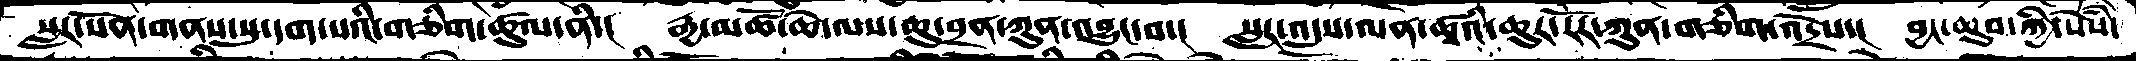སླར་སོན་གནས་སུ་དག་པའི་གཅིག་ཚུལ་ནི་།  རྒྱ་མཚོ་ཆེ་ལས་ཆུ་བྲན་ཀུན་འབྱུང་བ་།  སླར་འདུས་ལན་ཚྭའི་ཆུར་རོར་ཀུན་གཅིག་འདྲེས་།  བྱང་ཆུབ་ཀྱི་སེཾས་
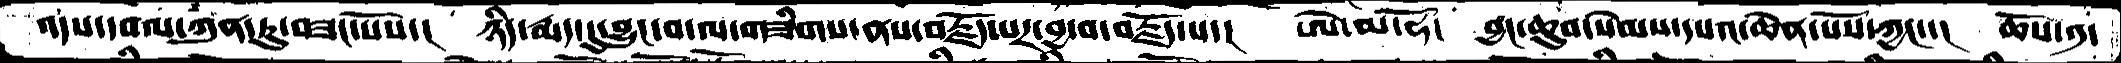འདས་དཔལ་ཀུན་ཏུ་བཟང་པོས་།  ཉིད་རྨད་དུ་བྱུང་བ་ལ་གཟིགས་ནས་བརྗོད་པར་བྱ་བ་བརྗོད་པ་།   ཨེ་མ་ཧོ།  བྱང་ཆུབ་སེམས་དཔའ་ཆེན་པོས་ཀྱང་་།  ཆོས་༡་
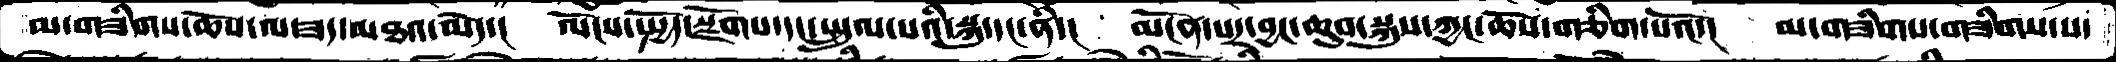མ་གཟིགས་ཆོས་ལ་ཟད་མཐའ་མེད་།  ལོངས་སྤྱོད་སྫོགས་དང་སྤྲུལ་པའི་སྐུ་དང་ནི་།  མངོན་པར་བྱང་ཆུབ་སྐུས་ཀྱང་ཆོས་གཅིག་པའོ་།  མ་གཟིགས་གཟིགས་པ་
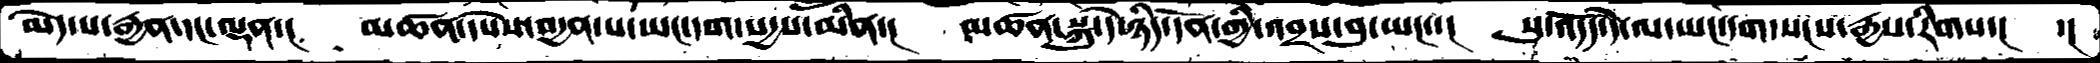མེད་པ་རྒྱན་དང་ལྡན་།  མཚན་དཔེས་བདྱན་པ་ཡང་དག་སདྱས་མིན་།  མཚན་སྐུ་དེ་ཉིད་དོན་གྱི་འབྲས་བུ་ཡང་་།  སུ་འདོད་དེ་ལ་ཡང་དག་སངས་རྒྱས་རིགས་།   ་།
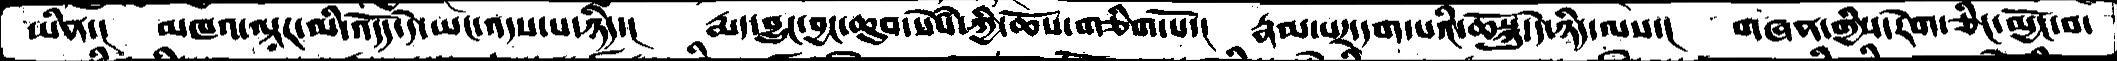ཡིན་།  མཁའ་ལྟར་མི་འདོད་དེ་ཡང་འདས་པ་ཉིད་།  རྨད་བྱུང་བྱང་ཆུབ་སེསཾ་ཀྱི་ཆོས་གཅིག་པོ།  རྣམ་པར་དག་པའི་ཆོསྐུ་དེ་ཉིད་ལས་།  གཞན་གྱིས་རེག་ཅིང་མྱོང་བ་
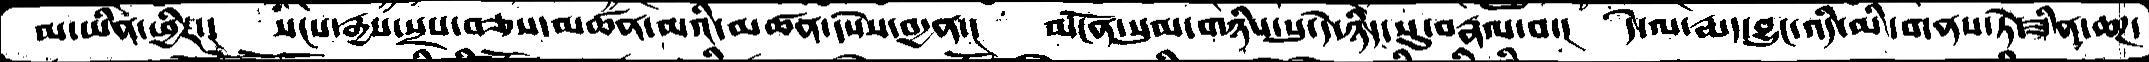མ་ཡིན་ཕྱིར་། སངས་རྒྱས་སྲས་བཅས་མཚན་མའི་མཚན་དཔེས་བརྒྱན་། མངོན་སུམ་གཉིས་སུ་དེ་ཉིད་སུ་བརྣལ་བ་། དེ་ལ་རྨད་བྱུང་འདི་མི་གནས་ཏེ་ཟིན་ཆཌ་
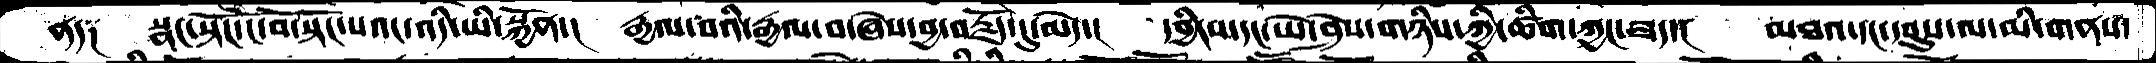ནད༑   སྣང་སྟོང་ངོ་བོ་སྟོང་པའང་འདི་ཡི་སྐྱོན་།  རྒྱལ་བའི་རྒྱལ་བ་ཞེས་བྱ་བརྗོད་དུ་མེད་།  དབྱིངས་དང་ཡེ་ཤེས་གཉིས་ཀྱི་ཚིག་ཀྱང་ཟད་།  མཐའ་དང་དབུས་ལ་མི་གནས་
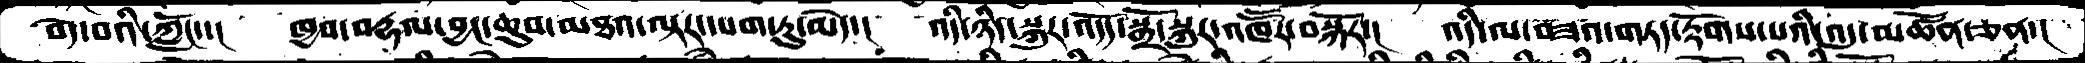བདེ་བའི་ཀློང་་།  ཁྱབ་བརྡལ་བྱང་ཆུབ་མཐའ་ལྟར་དཔག་ཏུ་མེད་།  འདི་ཉིད་སྐུར་འདོད་སྒྲོ་སྐུར་འཁཽར་བསྐོར་།  འདི་ལ་བཟའ་གཏད་རྟོགས་པའི་འདུ་མཚོན་ཅན་།
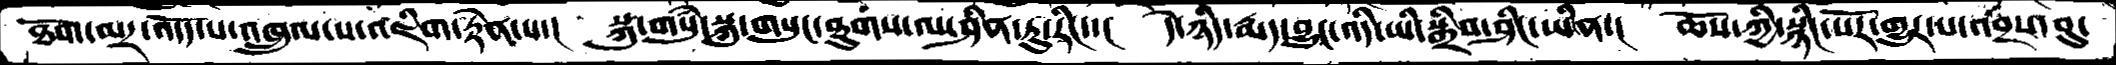ཐོག་མར་འདོད་པ་འཁྲུལ་པ་འཇིག་རྟེེན་པ་།  སྐུ་གསུཾ་སྐུ་གསུང་ཐུགས་ལ་ཤིན་ཏུ་རིང་་།  དེ་ཉིད་རྨད་བྱུང་འདི་ཡི་སྒྲིབ་ཤིང་ཡིན་།  ཆོས་ཀྱི་སྙིང་པོར་གྱུར་པ་འབྲས་བུ་
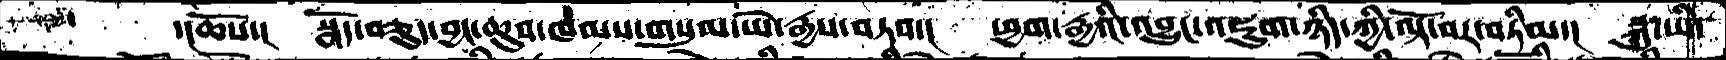་།ཆོས་། སྣོད་བཅུད་བྱང་ཆུབ་ཁམས་གསུམ་ཡེ་རྒྱས་བཏབ་། ཕྱག་རྒྱའི་འབྱུང་འཇུག་ཉིད་ཀྱི་ལྟོ་བར་བཏིམ་། སྐུ་ཡི་
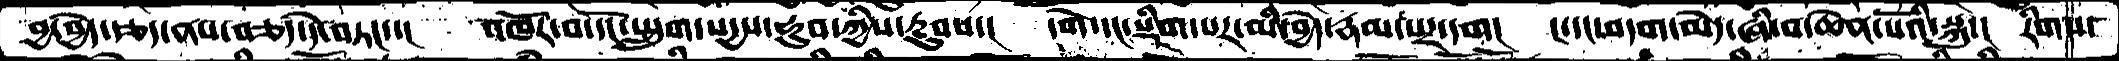བྱ་བྱེད་རྩད་ནས་བཅད་དེ་བཏང་་།  འཁོར་བ་དོང་སྤྲུག་སདྱས་ཧུབ་ཀྱིས་རྔུབས་།  དགེ་དང་སྡིག་པར་མི་བྱེད་རྣམ་པར་དག།  ང་དང་བདག་མེད་ཞི་བ་ཆེན་པོའི་སྐུ་།  རིགས་
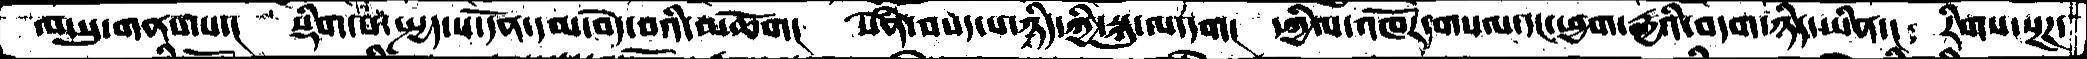ལངསུ་གནས་པ་།  སྡིག་པ་སྤྱད་པ་དོན་དམ་བདེ་བའི་མཆོག།  སེཾན་བསད་པ་ཉིད་ཀྱི་སྐུ་ལ་དག།  དཀྱིལ་འཁོར་གསལ་དང་ཕྱག་རྒྱའི་བདག་ཉིད་ཡིན་།  རིགས་སྔཌ་
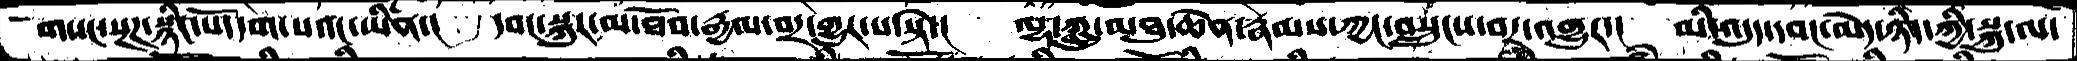གསང་སྔཌ་སྙིང་པོ་དག་པའང་ཡིན་།  དབང་སྐུར་མ་ཐོབ་རྒྱལ་བར་གྱུར་པ་སྟེ་།  ལྷ་ཀླུ་མཐུ་ཆེན་རྣམས་ཀྱང་བསྲུངས་བར་འགྱུར་།  མི་འདུད་དབང་མེད་ཉིད་ཀྱི་སྐུ་ལ་
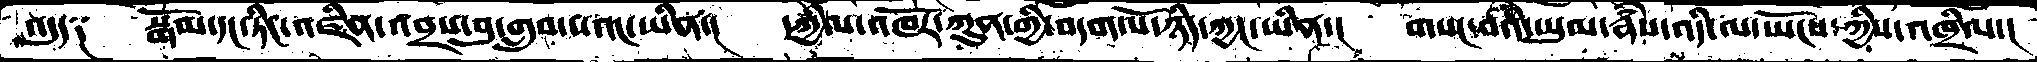འདུད༑   སྒོམ་དང་ཏིང་འཛིན་འབྲས་བུ་གྲུབ་པའང་ཡིན་།  དཀྱིལ་འཁོར་ཀུན་གྱི་བདག་པོ་ཉིད་ཀྱང་ཡིན་།  གསང་བའི་ཡུམ་རྣཾས་འདི་ལ་ཡོངས་ཀྱིས་འཁྲིལ་།
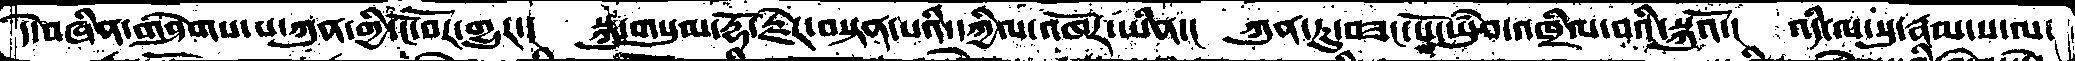དེ་བཞིན་གཤེགས་པ་ཀུན་གྱི་ངོ་བོར་གྱུར་།  སྐུ་གསུམ་རྡོ་རྗེར་བསྟན་པའི་དཀྱིལ་འཁོར་ཡིན་།  ཀུན་ཏུ་བཟང་པོ་ཡུཾབ་འཁྲིལ་བའི་སྐུའོ་།  འདི་ལ་སུ་རྣམ་ས་ལ་
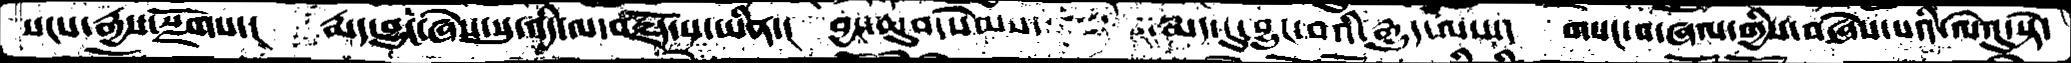སངས་རྒྱས་སྫོགས་།   རྨད་བྱུང་ཞེས་སུ་འདི་ལ་བརྗོད་པ་ཡིན་།   བྱང་ཆུབ་སེམས་      རྨད་དུ་བྱུང་བའི་རྒྱུད་ལས་།   གསང་བ་ཞལ་གྱིས་བཞེས་པའི་ལེའུ་སྟེ་
